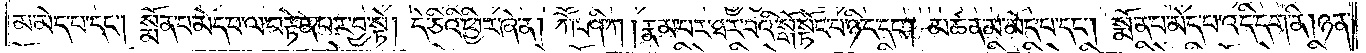མ་མེད་པ་དང༌། སྨོན་པ་མེད་པ་ལ་བརྟེན་པར་བྱ་སྟེ། དེ་ཅིའི་ཕྱིར་ཞེ་ན། ཀཽ་ཤི་ཀ། རྣམ་པར་ཐར་པའི་སྒོ་སྟོང་པ་ཉིད་དང༌། མཚན་མ་མེད་པ་དང༌། སྨོན་པ་མེད་པ་འདི་དག་ནི། ཉན་
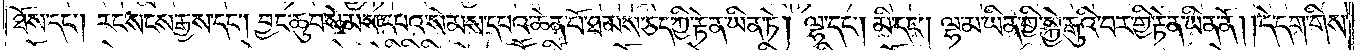ཐོས་དང༌། རང་སངས་རྒྱས་དང༌། བྱང་ཆུབ་སེམས་དཔའ་སེམས་དཔའ་ཆེན་པོ་ཐམས་ཅད་ཀྱི་རྟེན་ཡིན་ཏེ། ལྷ་དང༌། མི་དང༌། ལྷ་མ་ཡིན་གྱི་སྐྱེ་རྒུའི་བར་གྱི་རྟེན་ཡིན་ནོ། །དེ་དག་གིས་
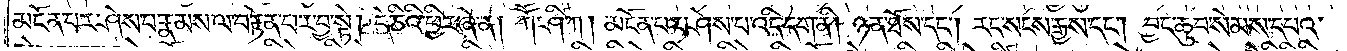མངོན་པར་ཤེས་པ་རྣམས་ལ་བརྟེན་པར་བྱ་སྟེ། དེ་ཅིའི་ཕྱིར་ཞེ་ན། ཀཽ་ཤི་ཀ། མངོན་པར་ཤེས་པ་འདི་དག་ནི། ཉན་ཐོས་དང༌། རང་སངས་རྒྱས་དང༌། བྱང་ཆུབ་སེམས་དཔའ་
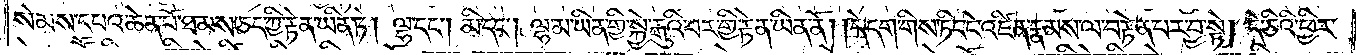སེམས་དཔའ་ཆེན་པོ་ཐམས་ཅད་ཀྱི་རྟེན་ཡིན་ཏེ། ལྷ་དང༌། མི་དང༌། ལྷ་མ་ཡིན་གྱི་སྐྱེ་རྒུའི་བར་གྱི་རྟེན་ཡིན་ནོ། །དེ་དག་གིས་ཏིང་ངེ་འཛིན་རྣམས་ལ་བརྟེན་པར་བྱ་སྟེ། དེ་ཅིའི་ཕྱིར་
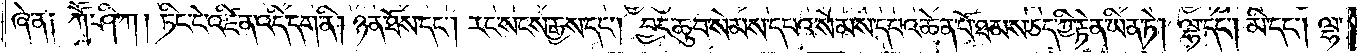ཞེ་ན༑ ཀཽ་ཤི་ཀ། ཏིང་ངེ་འཛིན་འདི་དག་ནི། ཉན་ཐོས་དང༌། རང་སངས་རྒྱས་དང༌། བྱང་ཆུབ་སེམས་དཔའ་སེམས་དཔའ་ཆེན་པོ་ཐམས་ཅད་ཀྱི་རྟེན་ཡིན་ཏེ། ལྷ་དང༌། མི་དང༌། ལྷ་
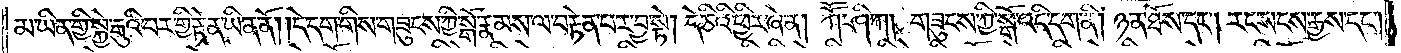མ་ཡིན་གྱི་སྐྱེ་རྒུའི་བར་གྱི་རྟེན་ཡིན་ནོ། །དེ་དག་གིས་གཟུངས་ཀྱི་སྒོ་རྣམས་ལ་བརྟེན་པར་བྱ་སྟེ། དེ་ཅིའི་ཕྱིར་ཞེ་ན། ཀཽ་ཤི་ཀ། གཟུངས་ཀྱི་སྒོ་འདི་དག་ནི། ཉན་ཐོས་དང༌། རང་སངས་རྒྱས་དང༌།
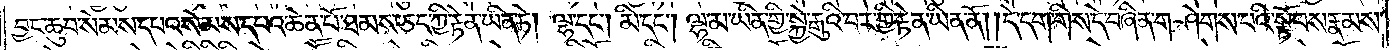བྱང་ཆུབ་སེམས་དཔའ་སེམས་དཔའ་ཆེན་པོ་ཐམས་ཅད་ཀྱི་རྟེན་ཡིན་ཏེ། ལྷ་དང༌། མི་དང༌། ལྷ་མ་ཡིན་གྱི་སྐྱེ་རྒུའི་བར་གྱི་རྟེན་ཡིན་ནོ། །དེ་དག་གིས་དེ་བཞིན་གཤེགས་པའི་སྟོབས་རྣམས་
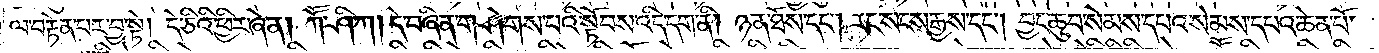ལ་བརྟེན་པར་བྱ་སྟེ། དེ་ཅིའི་ཕྱིར་ཞེ་ན། ཀཽ་ཤི་ཀ། དེ་བཞིན་གཤེགས་པའི་སྟོབས་འདི་དག་ནི། ཉན་ཐོས་དང༌། རང་སངས་རྒྱས་དང༌། བྱང་ཆུབ་སེམས་དཔའ་སེམས་དཔའ་ཆེན་པོ་
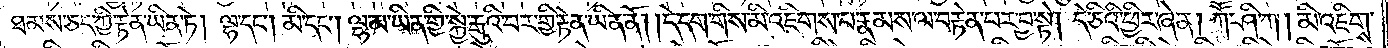ཐམས་ཅད་ཀྱི་རྟེན་ཡིན་ཏེ། ལྷ་དང༌། མི་དང༌། ལྷ་མ་ཡིན་གྱི་སྐྱེ་རྒུའི་བར་གྱི་རྟེན་ཡིན་ནོ། །དེ་དག་གིས་མི་འཇིགས་པ་རྣམས་ལ་བརྟེན་པར་བྱ་སྟེ། དེ་ཅིའི་ཕྱིར་ཞེ་ན། ཀཽ་ཤི་ཀ། མི་འཇིགས་
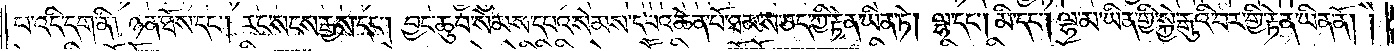པ་འདི་དག་ནི། ཉན་ཐོས་དང༌། རང་སངས་རྒྱས་དང༌། བྱང་ཆུབ་སེམས་དཔའ་སེམས་དཔའ་ཆེན་པོ་ཐམས་ཅད་ཀྱི་རྟེན་ཡིན་ཏེ། ལྷ་དང༌། མི་དང༌། ལྷ་མ་ཡིན་གྱི་སྐྱེ་རྒུའི་བར་གྱི་རྟེན་ཡིན་ནོ། །
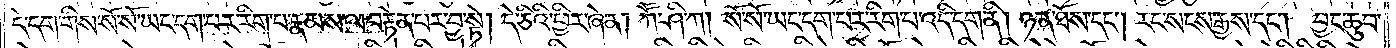དེ་དག་གིས་སོ་སོ་ཡང་དག་པར་རིག་པ་རྣམས་ལ་བརྟེན་པར་བྱ་སྟེ། དེ་ཅིའི་ཕྱིར་ཞེ་ན། ཀཽ་ཤི་ཀ། སོ་སོ་ཡང་དག་པར་རིག་པ་འདི་དག་ནི། ཉན་ཐོས་དང༌། རང་སངས་རྒྱས་དང༌། བྱང་ཆུབ་
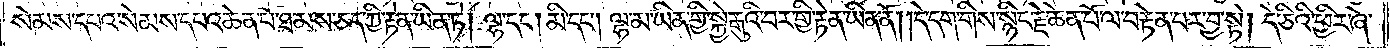སེམས་དཔའ་སེམས་དཔའ་ཆེན་པོ་ཐམས་ཅད་ཀྱི་རྟེན་ཡིན་ཏེ། ལྷ་དང༌། མི་དང༌། ལྷ་མ་ཡིན་གྱི་སྐྱེ་རྒུའི་བར་གྱི་རྟེན་ཡིན་ནོ། །དེ་དག་གིས་སྙིང་རྗེ་ཆེན་པོ་ལ་བརྟེན་པར་བྱ་སྟེ། དེ་ཅིའི་ཕྱིར་ཞེ་
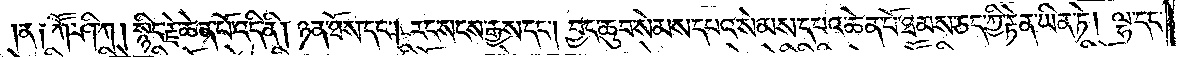ན༑ ཀཽ་ཤི་ཀ། སྙིང་རྗེ་ཆེན་པོ་འདི་ནི་ཉན་ཐོས་དང༌། རང་སངས་རྒྱས་དང༌། བྱང་ཆུབ་སེམས་དཔའ་སེམས་དཔའ་ཆེན་པོ་ཐམས་ཅད་ཀྱི་རྟེན་ཡིན་ཏེ། ལྷ་དང༌།
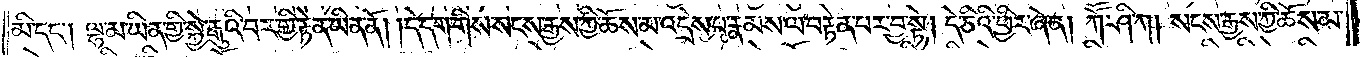མི་དང༌། ལྷ་མ་ཡིན་གྱི་སྐྱེ་རྒུའི་བར་གྱི་རྟེན་ཡིན་ནོ། །དེ་དག་གིས་སངས་རྒྱས་ཀྱི་ཆོས་མ་འདྲེས་པ་རྣམས་ལ་བརྟེན་པར་བྱ་སྟེ། དེ་ཅིའི་ཕྱིར་ཞེ་ན། ཀཽ་ཤི་ཀ། སངས་རྒྱས་ཀྱི་ཆོས་མ་
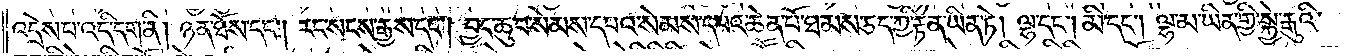འདྲེས་པ་འདི་དག་ནི་ཉན་ཐོས་དང༌། རང་སངས་རྒྱས་དང༌། བྱང་ཆུབ་སེམས་དཔའ་སེམས་དཔའ་ཆེན་པོ་ཐམས་ཅད་ཀྱི་རྟེན་ཡིན་ཏེ། ལྷ་དང༌། མི་དང༌། ལྷ་མ་ཡིན་གྱི་སྐྱེ་རྒུའི་
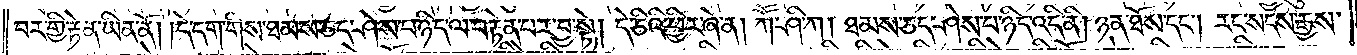བར་གྱི་རྟེན་ཡིན་ནོ། །དེ་དག་གིས་ཐམས་ཅད་ཤེས་པ་ཉིད་ལ་བརྟེན་པར་བྱ་སྟེ། དེ་ཅིའི་ཕྱིར་ཞེ་ན། ཀཽ་ཤི་ཀ། ཐམས་ཅད་ཤེས་པ་ཉིད་འདི་ནི། ཉན་ཐོས་དང༌། རང་སངས་རྒྱས་
